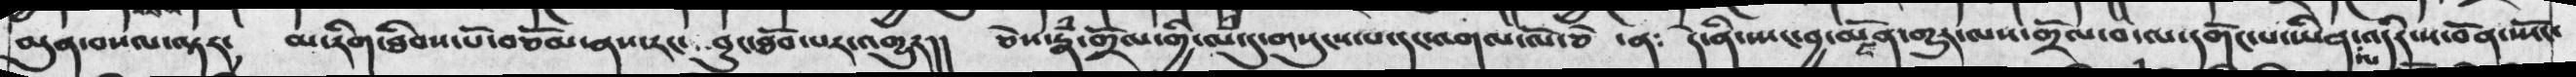མུན་བསལ་ལྟར་   མ་རིག་ཐིབས་པོ་བཅོམ་ནས་རང་  བྱུང་ཐོབ་པར་འགྱུར།།  ཅེས་རྣཾ་གྲོལ་གྱི་ལཾ་དུ་གསུངས་པ་དང་འགལ་ལོ་ཅེ  ་ན༴   དེ་ནི་སྤང་བྱ་མངོན་གྱུར་ལས་གྲོལ་བ་ལ་དགོང་པ་ཡིན་ལ་འདིར་ས་བོན་སྤོང་
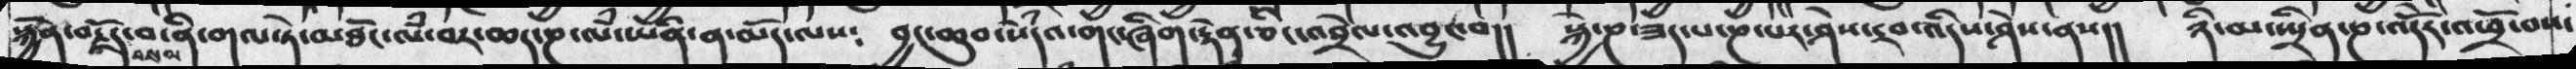སྐྱོན་བརྗོད་བསལ་བ་ནི་གལ་ཏེ་མཐོང་ལཾ་བར་ཆད་ཎ་ལཾ་ཡིན་ན་མདོ་ལས༴  བྱང་ཆུབ་སེཾདའ་གང་ཞིག་རྟེན་ཅིང་འབྲེལ་འབྱུང་བ།།  སྐྱེ་ཎ་ཟད་པ་ཎ་པར་ཤེས་རབ་འདིས་ཤེས་ནས།།   ཉི་མ་སྤྲིན་ཎ་འོདེར་འཕྲོ་བས་
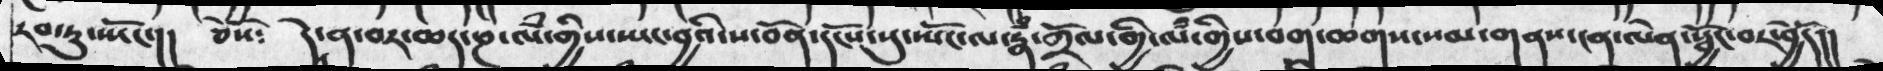རབ་ཏུ་ཡོང་།།  ཅེསོ༴    དེ་ན་བར་ཆད་ཎ་ལཾ་གྱིས་ཡང་བྱའི་ས་བོན་དངོས་སུ་སྤོང་ལ་རྣཾ་གྲོལ་གྱི་ལཾ་གྱིས་བག་ཆགས་སམ་གནས་ངན་ལེན་སྦྱོང་བར་བྱེདོ།།
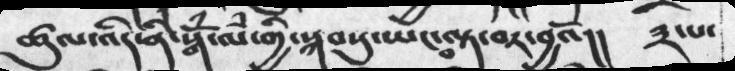ཚུལ་འདི་ན་སྒོཾ་གྱི་སྐབསུ་ཡང་བལྟ་བར་བྱའོ།།  ༣་པ་
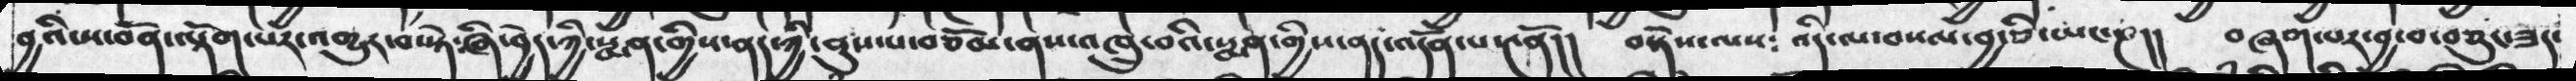བྱའི་ས་བོན་ལྟོག་པར་འགྱུར་བ་སྟེ༴ཞི་བྱེད་ཀྱི་སྨན་གྱིས་ནད་ཀྱི་ནུས་པ་བཅོམ་ནས་འཁྲུ་བའི་སྨན་གྱིས་ནད་འདོན་པ་༤ནོ།།  བསྡེས་ལས༴   འདི་ལ་བསལ་བྱ་ཅི་ཡང་ཎ།།  བཞག་པར་བྱ་བ་བཅུང་ཟད་
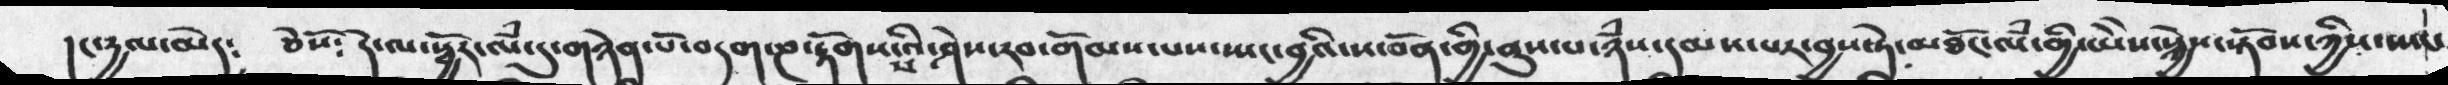།ང་དྱལ་མེད༴   ཅེསོ༴  དེ་ལ་སྦྱོར་ལཾ་དུ་གཉེན་པོ་བདག་ཎ་རྟོགས་པའི་ཤེས་རབ་གོམས་པས་སྤང་བྱའི་ས་བོན་གྱི་ནུས་པ་ཉཾས་དམས་པར་བྱས་ཏེ་མཐོང་ལཾ་གྱི་ཡེེས་སྐྱེས་སྟོབས་ཀྱིས་སྤང་
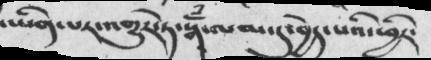་ཡིན་པར་འགྱུར་ཏེ་སྒོྃ་ལམ་དུ་བྱེད་པའི་ཕྱིར་
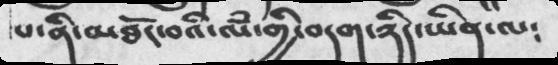པ་ནི་མཐོང་བའི་ལཾ་གྱི་བདག་ཉིད་ཡིན་ལ༴
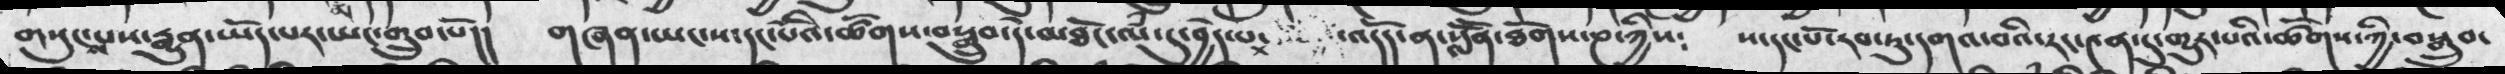གསུངས་པས་རྒྱུན་ཡོད་པར་ཡང་གྲུབ་པ།།   གཞན་ཡང་ས་དང་པོའི་ཚོགས་བསྒྲུབ་དེ་མཐོང་ལཾ་དུ་བྱེད་པ་   ་འདོད་ན་སློོན་ཐོགས་ཎ་ཀྱིས༴  ས་དང་པོ་རབ་ཏུ་དགའ་བའི་རང་༤ན་དུ་གྱུར་པའི་ཚོགས་ཀྱི་བསྒྲུབ་
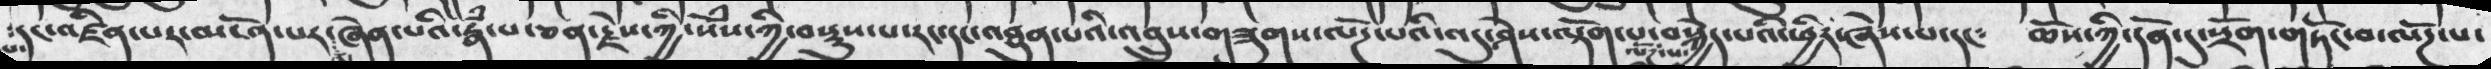པ་དང་འཛིན་པར་མངོན་པར་མ་ཞེན་པའི་རྣཾ་པ་ཅན་རྗེས་ཀྱི་སེཾས་ཀྱི་བསྡུས་པ་རང་དང་འཐུན་པའི་འབྲུས་གཟུགས་ལོཌ་པའི་འདུ་ཤེས་ལྟོག་པ་ལོཌ་པ་བསྐྱེད་པའི་ཕྱིར་ཞེས་པ་དང༴  ཆོས་ཀྱི་དོན་དུ་སྲོག་གཏོང་བ་ལོཌ་པ་
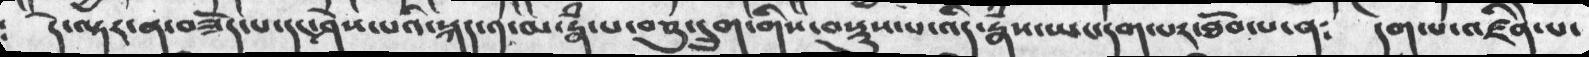དེ་ལྟར་ན་བཟོད་པ་དང་ཤེས་པའི་སྐད་༡་མ་རྣཾ་པ་བཅུ་དྲུག་གིས་བསྡུས་པ་འདི་རྣཾས་ཡང་དག་པར་ཐོབ་པ་ན༴     དེ་དག་པ་འཇིེན་པ་
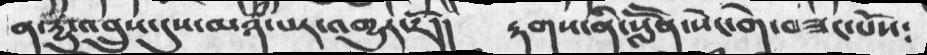ན་དྱུ་འབྲུས་དུས་མཉཾ་པར་འགྱུར་རོ།།     རྟགས་ནི་སློོན་སེང་གེ་བཟང་པོས༴
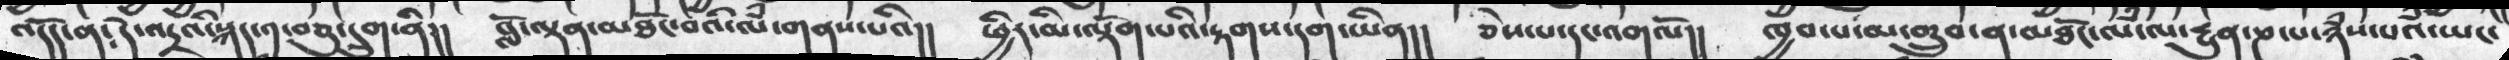འདོད་ན༴ དེ་འདྲའི་སྐད་༡་བཅུ་དྲུག་ནི།།   བློ་ལྡན་མཐོང་བའི་ལཾ་གནས་པའི།།  ཕྱིར་མི་ལྡོག་པའི་རྟགས་དག་ཡིན།།     ཅེས་པ་དང་འགལོ།།  ཁྱབ་པ་མ་གྲུབ་ན་མཐོང་ལཾ་ལ་དྱུན་ཎ་པ་ཉཾས་པའཾ་ཡང་
